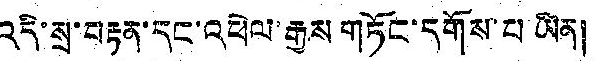འདི་སྲ་བརྟན་དང་འཕེལ་རྒྱས གཏོང་དོགས་པ་ཡིན།
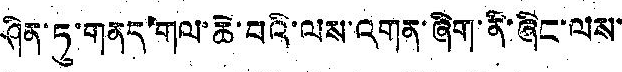ཤིན་ཏུ་གནད་གལ་ཆེ་བའི་ལས་འགན་ཞིག་ནི་ཞིང་ལས་
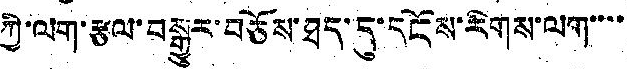ཀྱི་ལག་རྩལ་བསྒྱུར་བཅོས་ཐད་དུ་དངོས་རིགས་ལག་་་་
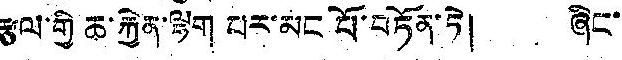རྩལ་གྱི ཆ་རྐྱེན་ལྷག པར་མང པོ་བཏོན་ཏེ། ཞིང་
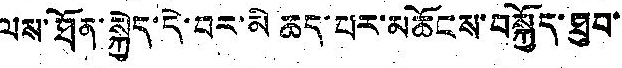ལས་ཐོན་སྐྱེད་དེ་བར་མི ཆད་པར་མཆོངས་བསྐྱོད་ཐུབ་
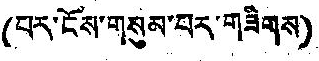(པར་ངོས་གསུམ་པར་གཟིགས)
